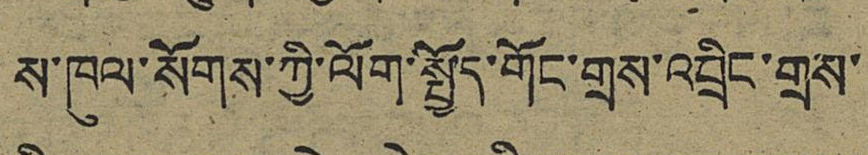ས་ཁུལ་སོགས་ཀྱི་ལོག་སྤྱོད་གོང་གྲས་འབྲིང་གྲས་
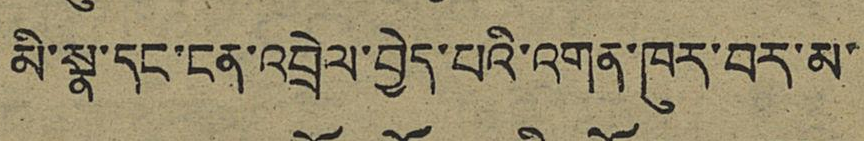མི་སྣ་དང་ངན་འབྲེལ་བྱེད་པའི་འགན་ཁུར་བར་མ་
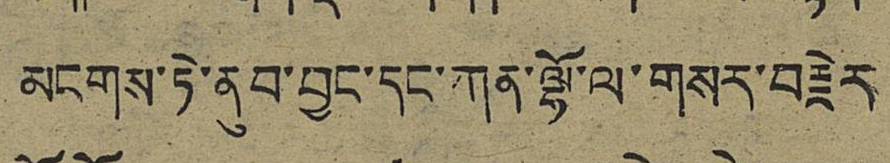མངགས་ཏེ་ནུབ་བྱང་དང་ཀན་ལྷོ་ལ་གསར་བརྗེར
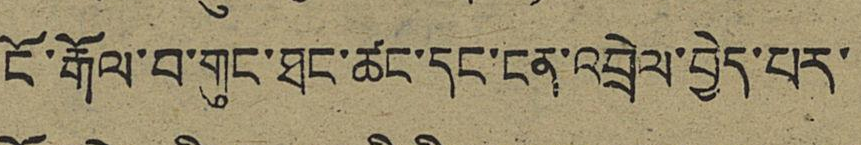ངོ་རྒོལ་བ་གུང་ཐང་ཚང་དང་ངན་འབྲེལ་བྱེད་པར་
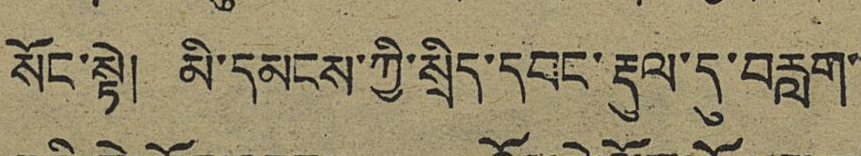སོང་སྟེ། མི་དམངས་ཀྱི་སྲིད་དབང་རྡུལ་དུ་བརླག་
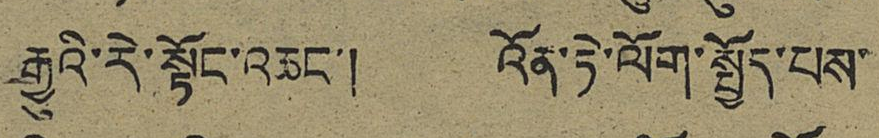རྒྱུའི་རེ་སྟོང་འཆང་། འོན་ཏེ་ལོག་སྤྱོད་པས་
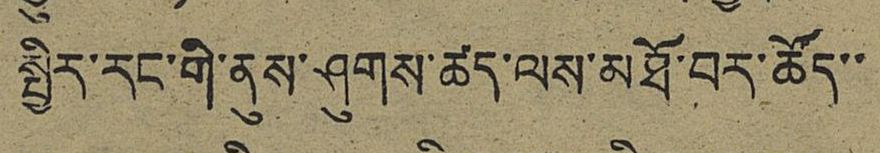སྤྱིར་རང་གི་ནུས་ཤུགས་ཚད་ལས་མཐོ་བར་ཚོད་་
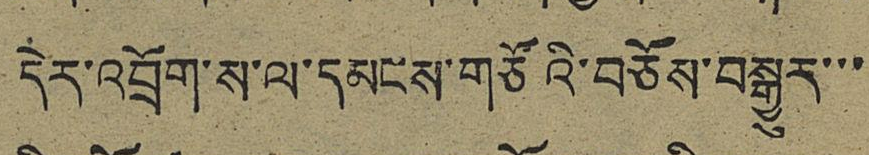དེར་འབྲོག་ས་ལ་དམངས་གཙོའི་བཅོས་བསྒྱུར་་
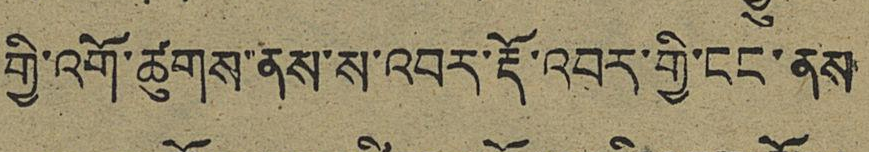གྱི་འགོ་ཚུགས་ནས་ས་འབར་རྡོ་འབར་གྱི་ངང་ནས
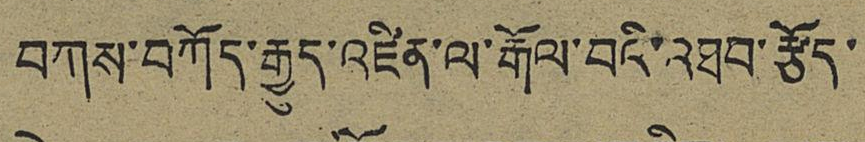བཀས་བཀོད་རྒྱུད་འཛིན་ལ་རྒོལ་བའི་འཐབ་རྩོད་
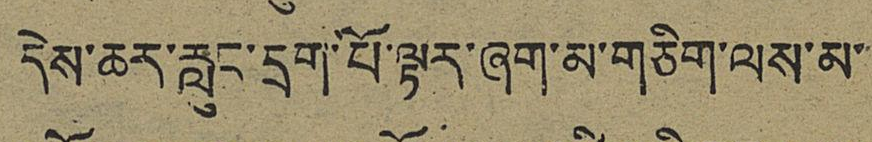དེས་ཆར་རླུང་དྲག་པོ་ལྟར་ཞག་མ་གཅིག་ལས་མ་
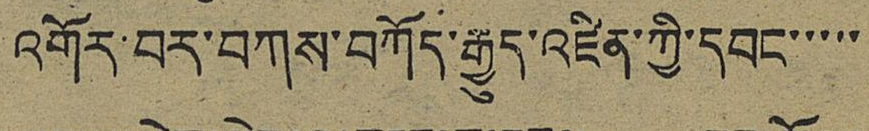འགོར་བར་བཀས་བཀོད་རྒྱུད་འཛིན་ཀྱི་དབང་་་་་
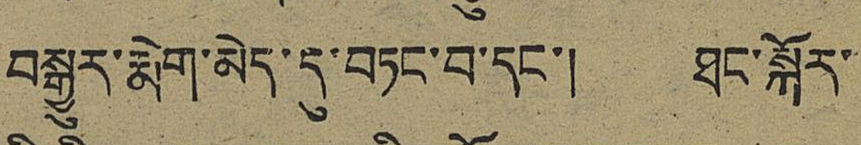བསྒྱུར་རྨེག་མེད་དུ་བཏང་བ་དང་། ཐང་སྐོར་
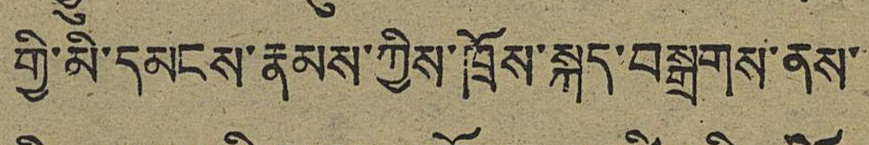གྱི་མི་དམངས་རྣམས་ཀྱིས་ཁྲོས་སྐད་བསྒྲགས་ནས་
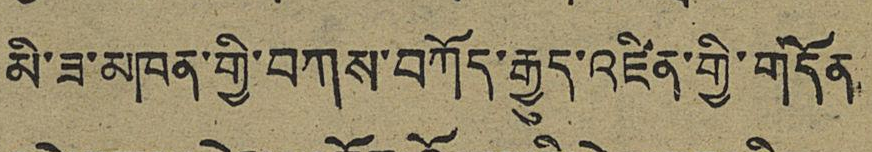མི་ཟ་མཁན་གྱི་བཀས་བཀོད་རྒྱུད་འཛིན་གྱི་གདོན
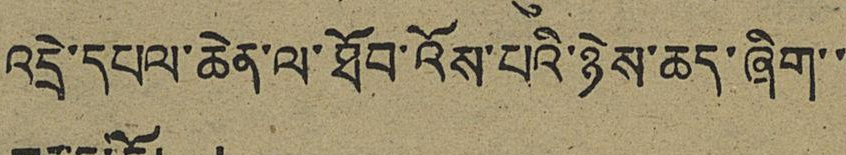འདྲེ་དཔལ་ཆེན་ལ་ཐོབ་འོས་པའི་ཉེས་ཆད་ཞིག་་
